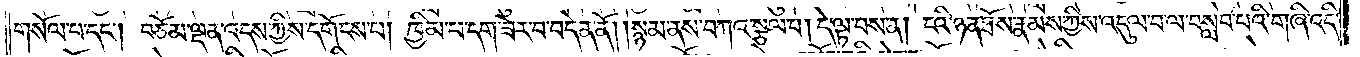གསོལ་པ་དང༌། བཅོམ་ལྡན་འདས་ཀྱིས་དགོངས་པ། ཁྱིམ་པ་དག་ཟེར་བ་བདེན་ནོ། །སྙམ་ནས་བཀའ་སྩལ་པ། དེ་ལྟ་བས་ན། ངའི་ཉན་ཐོས་རྣམས་ཀྱིས་འདུལ་བ་ལ་བསླབ་པའི་གཞི་འདི་
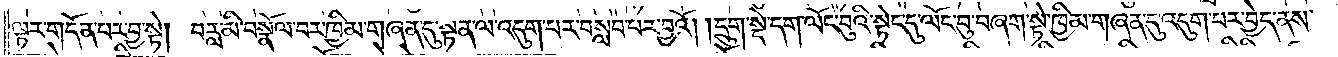ལྟར་གདོན་པར་བྱ་སྟེ། བརླ་མི་བསྣོལ་བར་ཁྱིམ་གཞན་དུ་སྟན་ལ་འདུག་པར་བསླབ་པར་བྱའོ། །དྲུག་སྡེ་དག་ལོང་བུའི་སྟེང་དུ་ལོང་བུ་བཞག་སྟེ་ཁྱིམ་གཞན་དུ་འདུག་པར་བྱེད་ནས་
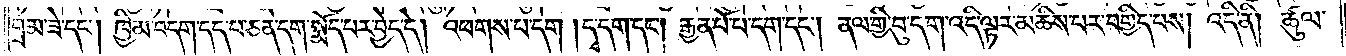བྲམ་ཟེ་དང༌། ཁྱིམ་བདག་དད་པ་ཅན་དག་སྨོད་པར་བྱེད་དེ། འཕགས་པ་དག །དྭ་དག་དང༌། རྒྱན་པོ་པ་དག་དང༌། ནལ་གྱི་བུ་དག་འདི་ལྟར་མཆིས་པར་བགྱིད་པས། འདི་ནི། ཚུལ་
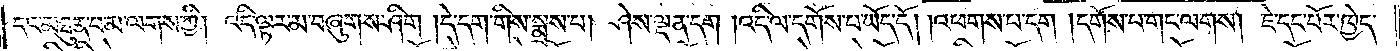དང་མཐུན་པ་མ་ལགས་ཀྱི། འདི་ལྟར་མ་བཞུགས་ཤིག །དེ་དག་གིས་སྨྲས་པ། ཤེས་ལྡན་དག །འདི་ལ་དགོས་པ་ཡོད་དོ། །འཕགས་པ་དག །དགོས་པ་གང་ལགས། ཇེ་དང་པོར་ཁྱེད་
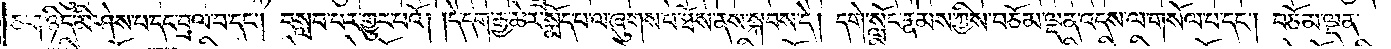ཅག་ཉིད་མི་ཤེས་པ་དང་བྲལ་བ་དང༌། བསླབ་པར་གྱུར་པའོ། །དེ་དག་རྒྱ་ཆེར་སྨོད་པ་ལ་ཞུགས་པ་ཐོས་ནས་སྐབས་དེ། དགེ་སློང་རྣམས་ཀྱིས་བཅོམ་ལྡན་འདས་ལ་གསོལ་པ་དང༌། བཅོམ་ལྡན་
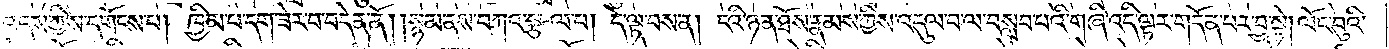འདས་ཀྱིས་དགོངས་པ། ཁྱིམ་པ་དག་ཟེར་བ་བདེན་ནོ། །སྙམ་ནས་བཀའ་སྩལ་པ། དེ་ལྟ་བས་ན། ངའི་ཉན་ཐོས་རྣམས་ཀྱིས་འདུལ་བ་ལ་བསླབ་པའི་གཞི་འདི་ལྟར་གདོན་པར་བྱ་སྟེ། ལོང་བུའི་
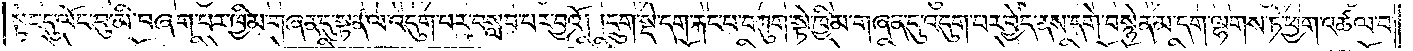སྟེང་དུ་ལོང་བུ་མི་བཞག་པར་ཁྱིམ་གཞན་དུ་སྟན་ལ་འདུག་པར་བསླབ་པར་བྱའོ། །དྲུག་སྡེ་དག་རྐང་པ་བཀུག་སྟེ་ཁྱིམ་གཞན་དུ་འདུག་པར་བྱེད་ནས་དགེ་བསྙེན་མ་དག་ལྷགས་ཏེ་ཕྱག་འཚལ་བ་
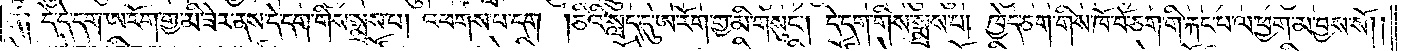ན༑ དེ་དེ་དག་ཨ་རོག་གྱ་མི་ཟེར་ནས་དེ་དག་གིས་སྨྲས་པ། འཕགས་པ་དག །ཅིའི་སླད་དུ་ཨ་རོག་གྱ་མི་གསུང༌། དེ་དག་གིས་སྨྲས་པ། ཁྱེད་ཅག་གིས་ཁོ་བོ་ཅག་གི་རྐང་པ་ལ་ཕྱག་མ་བྱས་སོ། །
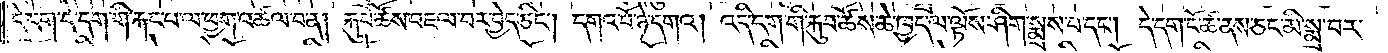དེ་དག་དེ་དག་གི་རྐང་པ་ལ་ཕྱག་འཚལ་བ་ན། རྐུབ་ཚོས་འཇལ་བར་བྱེད་ཅིང༌། དགའ་བོ་ཉེ་དགའ། འདི་དག་གི་རྐུབ་ཚོས་ཆེ་ཁྱད་ལ་ལྟོས་ཤིག་སྨྲས་པ་དང༌། དེ་དག་ངོ་ཚ་ནས་ཅང་མི་སྨྲ་བར་
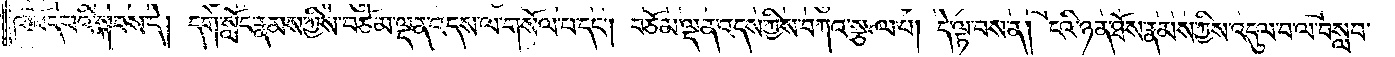འཁོད་པའི་སྐབས་དེ། དགེ་སློང་རྣམས་ཀྱིས་བཅོམ་ལྡན་འདས་ལ་གསོལ་པ་དང༌། བཅོམ་ལྡན་འདས་ཀྱིས་བཀའ་སྩལ་པ། དེ་ལྟ་བས་ན། ངའི་ཉན་ཐོས་རྣམས་ཀྱིས་འདུལ་བ་ལ་བསླབ་
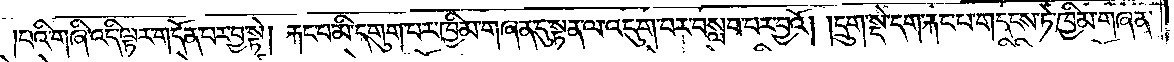པའི་གཞི་འདི་ལྟར་གདོན་པར་བྱ་སྟེ། རྐང་པ་མི་དགུག་པར་ཁྱིམ་གཞན་དུ་སྟན་ལ་འདུག་པར་བསླབ་པར་བྱའོ། །དྲུག་སྡེ་དག་རྐང་པ་གདངས་ཏེ་ཁྱིམ་གཞན་
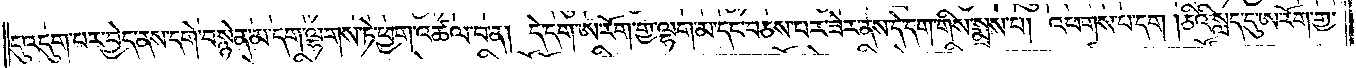དུ་འདུག་པར་བྱེད་ནས་དགེ་བསྙེན་མ་དག་ལྷགས་ཏེ་ཕྱག་འཚལ་བ་ན། དེ་དག་ཨ་རོག་གྱ་ལྷག་མ་དང་བཅས་པར་ཟེར་ནས་དེ་དག་གིས་སྨྲས་པ། འཕགས་པ་དག །ཅིའི་སླད་དུ་ཨ་རོག་གྱ་
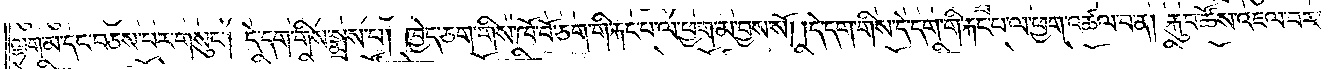ལྷག་མ་དང་བཅས་པར་གསུང༌། དེ་དག་གིས་སྨྲས་པ། ཁྱེད་ཅག་གིས་ཁོ་བོ་ཅག་གི་རྐང་པ་ལ་ཕྱག་མ་བྱས་སོ། །དེ་དག་གིས་དེ་དག་གི་རྐང་པ་ལ་ཕྱག་འཚལ་བ་ན། རྐུབ་ཚོས་འཇལ་བར་
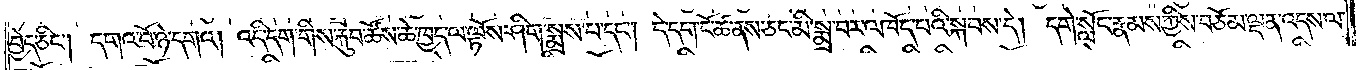བྱེད་ཅིང༌། དགའ་བོ་ཉེ་དགའ། འདི་དག་གིས་རྐུབ་ཚོས་ཆེ་ཁྱད་ལ་ལྟོས་ཤིག་སྨྲས་པ་དང༌། དེ་དག་ངོ་ཚ་ནས་ཅང་མི་སྨྲ་བར་འཁོད་པའི་སྐབས་དེ། དགེ་སློང་རྣམས་ཀྱིས་བཅོམ་ལྡན་འདས་ལ་
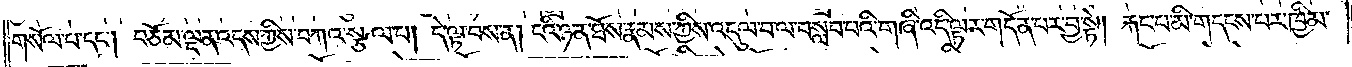གསོལ་པ་དང༌། བཅོམ་ལྡན་འདས་ཀྱིས་བཀའ་སྩལ་པ། དེ་ལྟ་བས་ན། ངའི་ཉན་ཐོས་རྣམས་ཀྱིས་འདུལ་བ་ལ་བསླབ་པའི་གཞི་འདི་ལྟར་གདོན་པར་བྱ་སྟེ། རྐང་པ་མི་གདངས་པར་ཁྱིམ་
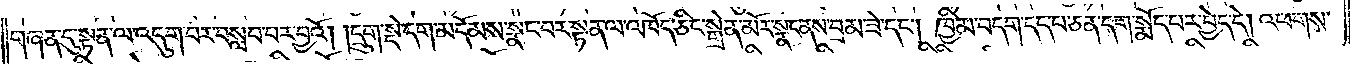གཞན་དུ་སྟན་ལ་འདུག་པར་བསླབ་པར་བྱའོ། །དྲུག་སྡེ་དག་མདོམས་སྣང་བར་སྟན་ལ་འཁོད་ཅིང་སྒྲེན་མོར་སྣང་ནས་བྲམ་ཟེ་དང༌། ཁྱིམ་བདག་དད་པ་ཅན་དག་སྨོད་པར་བྱེད་དེ། འཕགས་
